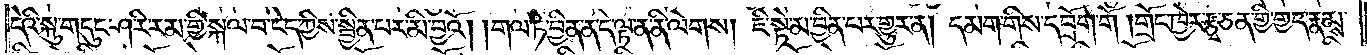དེའི་སྐུ་གདུང་ཤ་རི་རམ་གྱི་སྐལ་བ་ངེད་ཀྱིས་སྦྱིན་པར་མི་བྱའོ། །གལ་ཏེ་བྱིན་ན་དེ་ལྟ་ན་ནི་ལེགས། ཇི་སྟེ་མ་བྱིན་པར་གྱུར་ན། དམག་གིས་དབྲོག་གོ །གྲོང་ཁྱེར་རྩྭ་ཅན་གྱི་གྱད་རྣམས་
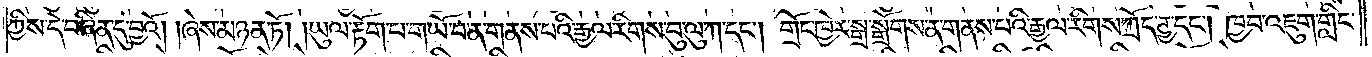ཀྱིས་དེ་བཞིན་དུ་བྱའོ། །ཞེས་མཉན་ཏོ། །ཡུལ་རྟོག་པ་གཡོ་བ་ན་གནས་པའི་རྒྱལ་རིགས་བུ་ལུ་ཀ་དང༌། གྲོང་ཁྱེར་སྒྲ་སྒྲོགས་ན་གནས་པའི་རྒྱལ་རིགས་ཀྲོད་ཊྱ་དང༌། ཁྱབ་འཇུག་གླིང་
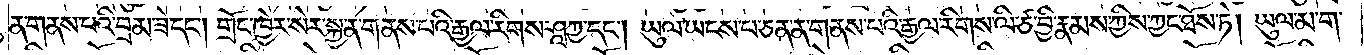ན་གནས་པའི་བྲམ་ཟེ་དང༌། གྲོང་ཁྱེར་སེར་སྐྱ་ན་གནས་པའི་རྒྱལ་རིགས་ཤཱཀྱ་དང༌། ཡུལ་ཡངས་པ་ཅན་ན་གནས་པའི་རྒྱལ་རིགས་ལི་ཙ་བྱི་རྣམས་ཀྱིས་ཀྱང་ཐོས་ཏེ། ཡུལ་མ་ག་
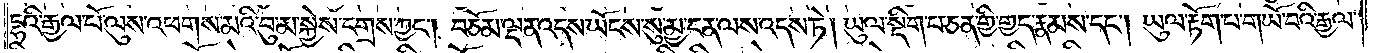དྷའི་རྒྱལ་པོ་ལུས་འཕགས་མའི་བུ་མ་སྐྱེས་དགྲས་ཀྱང༌། བཅོམ་ལྡན་འདས་ཡོངས་སུ་མྱ་ངན་ལས་འདས་ཏེ། ཡུལ་སྡིག་པ་ཅན་གྱི་གྱད་རྣམས་དང༌། ཡུལ་རྟོག་པ་གཡོ་བའི་རྒྱལ་
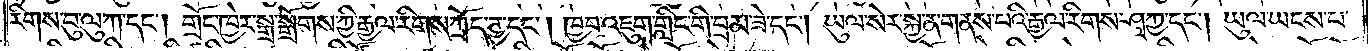རིགས་བུ་ལུ་ཀ་དང༌། གྲོང་ཁྱེར་སྒྲ་སྒྲོགས་ཀྱི་རྒྱལ་རིགས་ཀྲོད་ཊྱ་དང༌། ཁྱབ་འཇུག་གླིང་གི་བྲམ་ཟེ་དང༌། ཡུལ་སེར་སྐྱ་ན་གནས་པའི་རྒྱལ་རིགས་ཤཱཀྱ་དང༌། ཡུལ་ཡངས་པ་
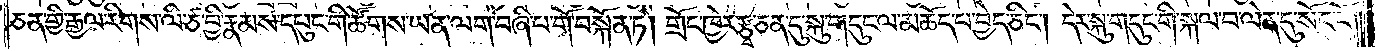ཅན་གྱི་རྒྱལ་རིགས་ལི་ཙ་བྱི་རྣམས་དཔུང་གི་ཚོགས་ཡན་ལག་བཞི་པ་གོ་བསྐོན་ཏེ། གྲོང་ཁྱེར་རྩྭ་ཅན་དུ་སྐུ་གདུང་ལ་མཆོད་པ་བྱེད་ཅིང༌། དེར་སྐུ་གདུང་གི་སྐལ་བ་ལེན་དུ་སོང་ངོ༌༎
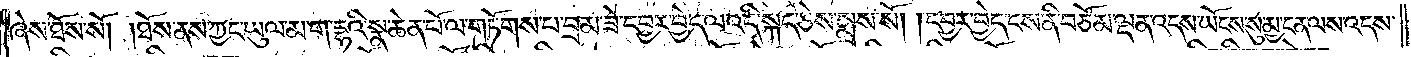ཞེས་ཐོས་སོ། །ཐོས་ནས་ཀྱང་ཡུལ་མ་ག་དྷའི་སྣ་ཆེན་པོ་ལ་གཏོགས་པ་བྲམ་ཟེ་དབྱར་བྱེད་ལ་འདི་སྐད་ཅེས་སྨྲས་སོ། །དབྱར་བྱེད་ངས་ནི་བཅོམ་ལྡན་འདས་ཡོངས་སུ་མྱ་ངན་ལས་འདས་
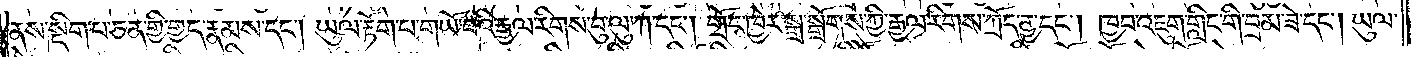ནས་སྡིག་པ་ཅན་གྱི་གྱད་རྣམས་དང༌། ཡུལ་རྟོག་པ་གཡོ་བའི་རྒྱལ་རིགས་བུ་ལུ་ཀ་དང༌། གྲོང་ཁྱེར་སྒྲ་སྒྲོགས་ཀྱི་རྒྱལ་རིགས་ཀྲོད་ཊྱ་དང༌། ཁྱབ་འཇུག་གླིང་གི་བྲམ་ཟེ་དང༌། ཡུལ་
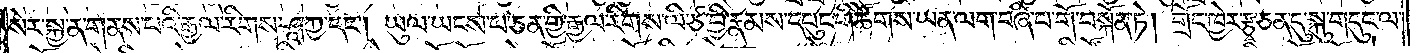སེར་སྐྱ་ན་གནས་པའི་རྒྱལ་རིགས་ཤཱཀྱ་དང༌། ཡུལ་ཡངས་པ་ཅན་གྱི་རྒྱལ་རིགས་ལི་ཙ་བྱི་རྣམས་དཔུང་གི་ཚོགས་ཡན་ལག་བཞི་པ་གོ་བསྐོན་ཏེ། གྲོང་ཁྱེར་རྩྭ་ཅན་དུ་སྐུ་གདུང་ལ་
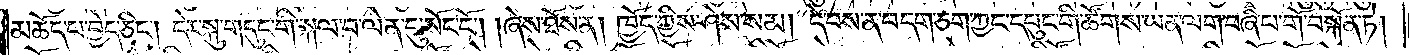མཆོད་པ་བྱེད་ཅིང༌། དེར་སྐུ་གདུང་གི་སྐལ་བ་ལེན་དུ་སོང་ངོ༌། །ཞེས་ཐོས་ན། ཁྱོད་ཀྱིས་ཤེས་སམ། དེ་བས་ན་བདག་ཅག་ཀྱང་དཔུང་གི་ཚོགས་ཡན་ལག་བཞི་པ་གོ་བསྐོན་ཏེ།
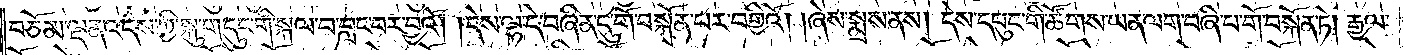བཅོམ་ལྡན་འདས་ཀྱི་སྐུ་གདུང་གི་སྐལ་བ་བླང་བར་བྱའོ། །དེས་ལྷ་དེ་བཞིན་དུ་གོ་བསྐོན་པར་བགྱིའོ། །ཞེས་སྨྲས་ནས། དེས་དཔུང་གི་ཚོགས་ཡན་ལག་བཞི་པ་གོ་བསྐོན་ཏེ། རྒྱལ་
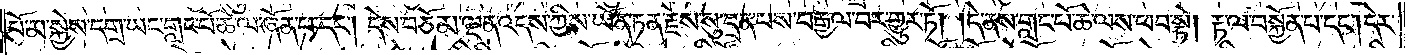པོ་མ་སྐྱེས་དགྲ་ཡང་གླང་པོ་ཆེ་ལ་ཞོན་པ་དང༌། དེས་བཅོམ་ལྡན་འདས་ཀྱིས་ཡོན་ཏན་རྗེས་སུ་དྲན་པས་བརྒྱལ་བར་གྱུར་ཏོ། །དེ་ནས་གླང་པོ་ཆེ་ལས་ཕབ་སྟེ། རྟ་ལ་བསྐྱོན་པ་དང༌། དེར་
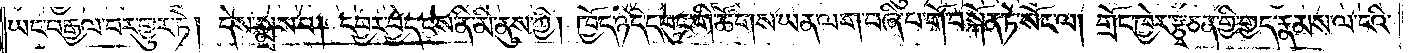ཡང་བརྒྱལ་བར་གྱུར་ཏེ། དེས་སྨྲས་པ། དབྱར་བྱེད་ངས་ནི་མི་ནུས་ཀྱི། ཁྱོད་ཉིད་དཔུང་གི་ཚོགས་ཡན་ལག་བཞི་པ་གོ་བསྐོན་ཏེ་སོང་ལ། གྲོང་ཁྱེར་རྩྭ་ཅན་གྱི་གྱད་རྣམས་ལ་ངའི་
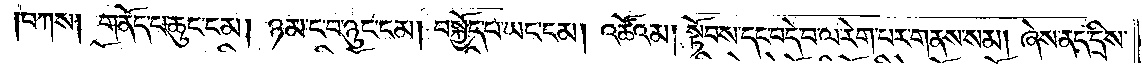བཀས། གནོད་པ་ཆུང་ངམ། ཉམ་ང་བ་ཉུང་ངམ། བསྐྱོད་པ་ཡང་ངམ། འཚོའམ། སྟོབས་དང་བདེ་བ་ལ་རེག་པར་གནས་སམ། ཞེས་ནད་དྲིས་
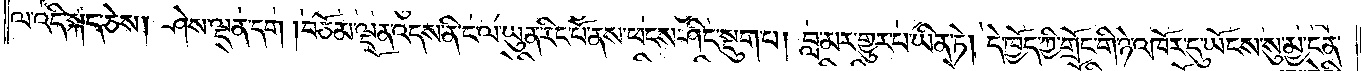ལ་འདི་སྐད་ཅེས། ཤེས་ལྡན་དག །བཅོམ་ལྡན་འདས་ནི་ང་ལ་ཡུན་རིང་པོ་ནས་ཕངས་ཤིང་སྡུག་པ། བླ་མར་གྱུར་པ་ཡིན་ཏེ། དེ་ཁྱོད་ཀྱི་གྲོང་གི་ཉེ་འཁོར་དུ་ཡོངས་སུ་མྱ་ངན་
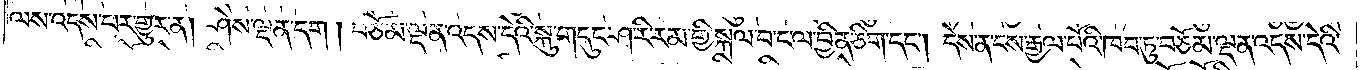ལས་འདས་པར་གྱུར་ན། ཤེས་ལྡན་དག །བཅོམ་ལྡན་འདས་དེའི་སྐུ་གདུང་ཤ་རི་རམ་གྱི་སྐལ་བ་ང་ལ་བྱིན་ཅིག་དང༌། དེས་ན་ངས་རྒྱལ་པོའི་ཁབ་ཏུ་བཅོམ་ལྡན་འདས་དེའི་
